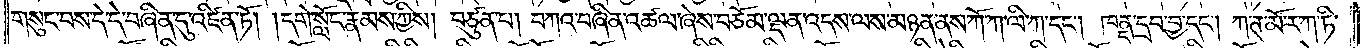གསུང་བས་དེ་དེ་བཞིན་དུ་འཛིན་ཏོ། །དགེ་སློང་རྣམས་ཀྱིས། བཙུན་པ། བཀའ་བཞིན་འཚལ་ཞེས་བཅོམ་ལྡན་འདས་ལས་མཉན་ནས་ཀོ་ཀ་ལི་ཀ་དང༌། ཁནྡ་དྲབ་བྱ་དང༌། ཀ་ཊ་མོ་ར་ཀ་ཏི་
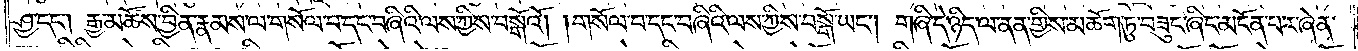ཤྱ་དང༌། རྒྱ་མཚོས་བྱིན་རྣམས་ལ་གསོལ་བ་དང་བཞིའི་ལས་ཀྱིས་བསྒོའོ། །གསོལ་བ་དང་བཞིའི་ལས་ཀྱིས་བསྒོ་ཡང༌། གཞི་དེ་ཉིད་ལ་ནན་གྱིས་མཆོག་ཏུ་བཟུང་ཞིང་མངོན་པར་ཞེན་
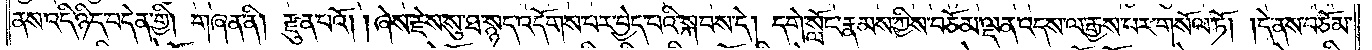ནས་འདི་ཉིད་བདེན་གྱི། གཞན་ནི། རྫུན་པའོ། །ཞེས་རྗེས་སུ་ཐ་སྙད་འདོགས་པར་བྱེད་པའི་སྐབས་དེ། དགེ་སློང་རྣམས་ཀྱིས་བཅོམ་ལྡན་འདས་ལ་རྒྱས་པར་གསོལ་ཏོ། །དེ་ནས་བཅོམ་
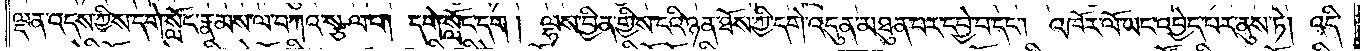ལྡན་འདས་ཀྱིས་དགེ་སློང་རྣམས་ལ་བཀའ་སྩལ་པ། དགེ་སློང་དག ། ལྷས་བྱིན་གྱིས་ངའི་ཉན་ཐོས་ཀྱི་དགེ་འདུན་མཐུན་པར་དབྱེ་བ་དང༌། འཁོར་ལོ་ཡང་འབྱེད་པར་ནུས་ཏེ།  འདི་
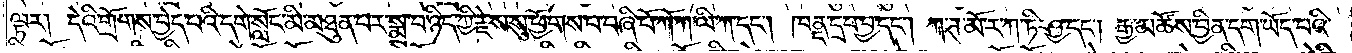ལྟར། དེའི་གྲོགས་བྱེད་པའི་དགེ་སློང་མི་མཐུན་པར་སྨྲ་བ་ཉིད་ཀྱི་རྗེས་སུ་ཕྱོགས་པ་བཞི་པོ་ཀོ་ཀ་ལི་ཀ་དང༌། ཁནྡ་དྲབ་བྱ་དང༌། ཀ་ཊ་མོ་ར་ཀ་ཏི་ཤྱ་དང༌། རྒྱ་མཚོས་བྱིན་དག་ཡོད་པའི་
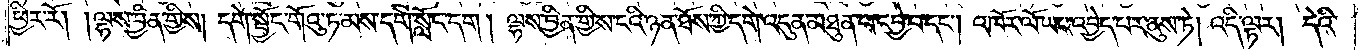ཕྱིར་རོ། །ལྷས་བྱིན་གྱིས། དགེ་སྦྱོང་གོའུ་ཏ་མས་དགེ་སློང་དག ། ལྷས་བྱིན་གྱིས་ངའི་ཉན་ཐོས་ཀྱི་དགེ་འདུན་མཐུན་པ་དབྱེ་བ་དང༌། འཁོར་ལོ་ཡང་འབྱེད་པར་ནུས་ཏེ། འདི་ལྟར། དེའི་
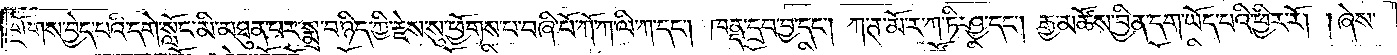གྲོགས་བྱེད་པའི་དགེ་སློང་མི་མཐུན་པར་སྨྲ་བ་ཉིད་ཀྱི་རྗེས་སུ་ཕྱོགས་པ་བཞི་པོ་ཀོ་ཀ་ལི་ཀ་དང༌། ཁནྡ་དྲབ་བྱ་དང༌། ཀ་ཊ་མོ་ར་ཀ་ཏི་ཤྱ་དང༌། རྒྱ་མཚོས་བྱིན་དག་ཡོད་པའི་ཕྱིར་རོ། །ཞེས་
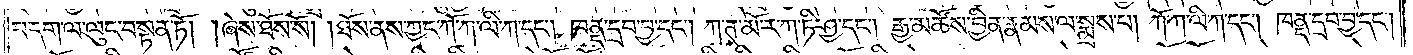བདག་ལ་ལུང་བསྟན་ཏོ། །ཞེས་ཐོས་སོ། །ཐོས་ནས་ཀྱང་ཀོ་ཀ་ལི་ཀ་དང༌། ཁནྡ་དྲབ་བྱ་དང༌། ཀ་ཊ་མོ་ར་ཀ་ཏི་ཤྱ་དང༌། རྒྱ་མཚོས་བྱིན་རྣམས་ལ་སྨྲས་པ། ཀོ་ཀ་ལི་ཀ་དང༌། ཁནྡ་དྲབ་བྱ་དང༌།
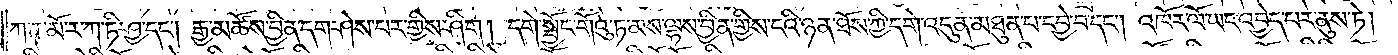ཀ་ཊ་མོ་ར་ཀ་ཏི་ཤྱ་དང༌། རྒྱ་མཚོས་བྱིན་དག་ཤེས་པར་གྱིས་ཤིག ། དགེ་སྦྱོང་གོའུ་ཏ་མས་ལྷས་བྱིན་གྱིས་ངའི་ཉན་ཐོས་ཀྱི་དགེ་འདུན་མཐུན་པ་དབྱེ་བ་དང༌། འཁོར་ལོ་ཡང་འབྱེད་པར་ནུས་ཏེ།
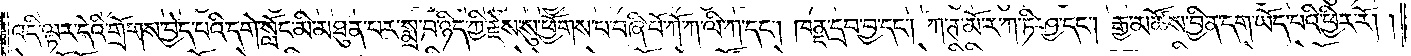འདི་ལྟར་དེའི་གྲོགས་བྱེད་པའི་དགེ་སློང་མི་མཐུན་པར་སྨྲ་བ་ཉིད་ཀྱི་རྗེས་སུ་ཕྱོགས་པ་བཞི་པོ་ཀོ་ཀ་ལི་ཀ་དང༌། ཁནྡ་དྲབ་བྱ་དང༌། ཀ་ཊ་མོ་ར་ཀ་ཏི་ཤྱ་དང༌། རྒྱ་མཚོས་བྱིན་དག་ཡོད་པའི་ཕྱིར་རོ། །
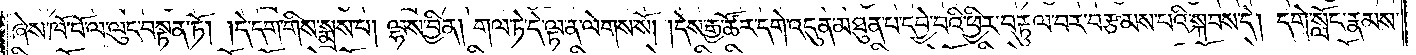ཞེས་ཁོ་བོ་ལ་ལུང་བསྟན་ཏོ། །དེ་དག་གིས་སྨྲས་པ། ལྷས་བྱིན། གལ་ཏེ་དེ་ལྟ་ན་ལེགས་སོ། །དེས་རྒྱ་ཚོར་དགེ་འདུན་མཐུན་པ་དབྱེ་བའི་ཕྱིར་བརྟུལ་བར་བརྩམས་པའི་སྐབས་དེ། དགེ་སློང་རྣམས་
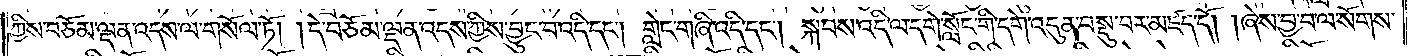ཀྱིས་བཅོམ་ལྡན་འདས་ལ་གསོལ་ཏོ། །དེ་བཅོམ་ལྡན་འདས་ཀྱིས་བྱུང་བ་འདི་དང༌། གླེང་གཞི་འདི་དང༌། སྐབས་འདི་ལ་དགེ་སློང་གི་དགེ་འདུན་བསྡུ་བར་མཛད་དོ། །ཞེས་བྱ་བ་ལ་སོགས་
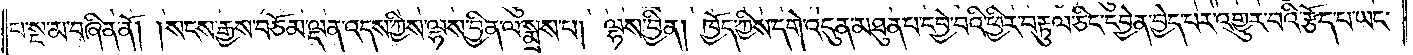པ་སྔ་མ་བཞིན་ནོ། །སངས་རྒྱས་བཅོམ་ལྡན་འདས་ཀྱིས་ལྷས་བྱིན་ལ་སྨྲས་པ། ལྷས་བྱིན། ཁྱོད་ཀྱིས་དགེ་འདུན་མཐུན་པ་དབྱེ་བའི་ཕྱིར་བརྟུལ་ཅིང་དབྱེན་བྱེད་པར་འགྱུར་བའི་རྩོད་པ་ཡང་
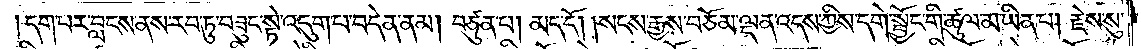དག་པར་བླངས་ནས་རབ་ཏུ་བཟུང་སྟེ་འདུག་པ་བདེན་ནམ། བཙུན་པ། མད་དོ། །སངས་རྒྱས་བཅོམ་ལྡན་འདས་ཀྱིས་དགེ་སྦྱོང་གི་ཚུལ་མ་ཡིན་པ། རྗེས་སུ་
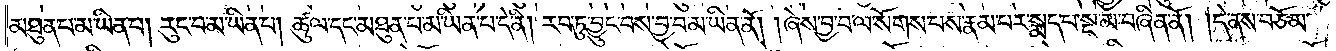མཐུན་པ་མ་ཡིན་པ། རུང་བ་མ་ཡིན་པ། ཚུལ་དང་མཐུན་པ་མ་ཡིན་པ་དེ་ནི། རབ་ཏུ་བྱུང་བས་བྱ་བ་མ་ཡིན་ནོ། །ཞེས་བྱ་བ་ལ་སོགས་པས་རྣམ་པར་སྨད་པ་སྔ་མ་བཞིན་ནོ། །དེ་ནས་བཅོམ་
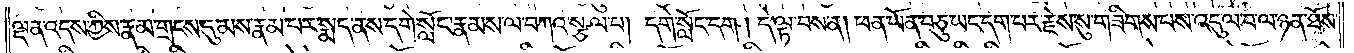ལྡན་འདས་ཀྱིས་རྣམ་གྲངས་དུ་མས་རྣམ་པར་སྨད་ནས་དགེ་སློང་རྣམས་ལ་བཀའ་སྩལ་པ། དགེ་སློང་དག །དེ་ལྟ་བས་ན། ཕན་ཡོན་བཅུ་ཡང་དག་པར་རྗེས་སུ་གཟིགས་པས་འདུལ་བ་ལ་ཉན་ཐོས་
